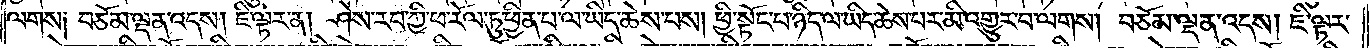ལགས༑ བཅོམ་ལྡན་འདས། ཇི་ལྟར་ན། ཤེས་རབ་ཀྱི་ཕ་རོལ་ཏུ་ཕྱིན་པ་ལ་ཡིད་ཆེས་པས། ཕྱི་སྟོང་པ་ཉིད་ལ་ཡིད་ཆེས་པར་མི་འགྱུར་བ་ལགས། བཅོམ་ལྡན་འདས། ཇི་ལྟར་
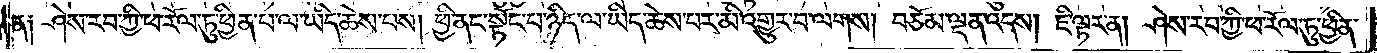ན༑ ཤེས་རབ་ཀྱི་ཕ་རོལ་ཏུ་ཕྱིན་པ་ལ་ཡིད་ཆེས་པས། ཕྱི་ནང་སྟོང་པ་ཉིད་ལ་ཡིད་ཆེས་པར་མི་འགྱུར་བ་ལགས། བཅོམ་ལྡན་འདས། ཇི་ལྟར་ན། ཤེས་རབ་ཀྱི་ཕ་རོལ་ཏུ་ཕྱིན་
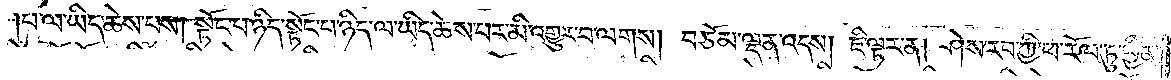པ་ལ་ཡིད་ཆེས་པས། སྟོང་པ་ཉིད་སྟོང་པ་ཉིད་ལ་ཡིད་ཆེས་པར་མི་འགྱུར་བ་ལགས། བཅོམ་ལྡན་འདས། ཇི་ལྟར་ན། ཤེས་རབ་ཀྱི་ཕ་རོལ་ཏུ་ཕྱིན་
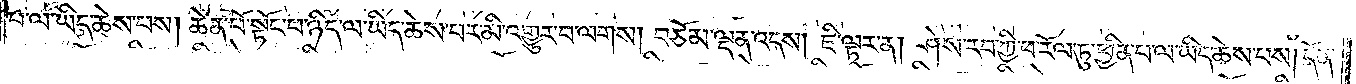པ་ལ་ཡིད་ཆེས་པས། ཆེན་པོ་སྟོང་པ་ཉིད་ལ་ཡིད་ཆེས་པར་མི་འགྱུར་བ་ལགས། བཅོམ་ལྡན་འདས། ཇི་ལྟར་ན། ཤེས་རབ་ཀྱི་ཕ་རོལ་ཏུ་ཕྱིན་པ་ལ་ཡིད་ཆེས་པས། དོན་
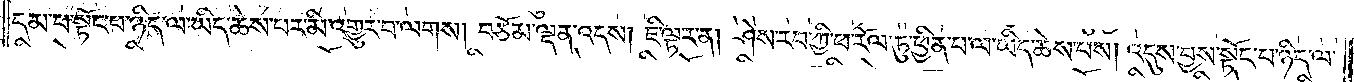དམ་པ་སྟོང་པ་ཉིད་ལ་ཡིད་ཆེས་པར་མི་འགྱུར་བ་ལགས། བཅོམ་ལྡན་འདས། ཇི་ལྟར་ན། ཤེས་རབ་ཀྱི་ཕ་རོལ་ཏུ་ཕྱིན་པ་ལ་ཡིད་ཆེས་པས། འདུས་བྱས་སྟོང་པ་ཉིད་ལ་
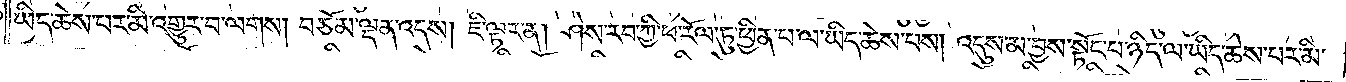ཡིད་ཆེས་པ་མི་འགྱུར་བ་ལགས། བཅོམ་ལྡན་འདས། ཇི་ལྟར་ན། ཤེས་རབ་ཀྱི་ཕ་རོལ་ཏུ་ཕྱིན་པ་ལ་ཡིད་ཆེས་པས། འདུས་མ་བྱས་སྟོང་པ་ཉིད་ལ་ཡིད་ཆེས་པར་མི་
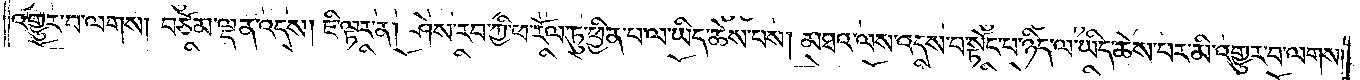འགྱུར་བ་ལགས། བཅོམ་ལྡན་འདས། ཇི་ལྟར་ན། ཤེས་རབ་ཀྱི་ཕ་རོལ་ཏུ་ཕྱིན་པ་ལ་ཡིད་ཆེས་པས། མཐའ་ལས་འདས་པ་སྟོང་པ་ཉིད་ལ་ཡིད་ཆེས་པར་མི་འགྱུར་བ་ལགས།
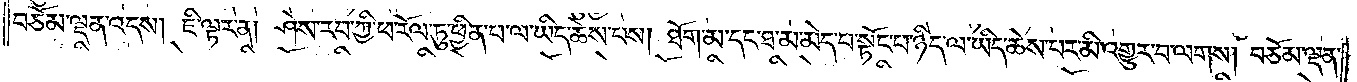བཅོམ་ལྡན་འདས། ཇི་ལྟར་ན། ཤེས་རབ་ཀྱི་ཕ་རོལ་ཏུ་ཕྱིན་པ་ལ་ཡིད་ཆེས་པས། ཐོག་མ་དང་ཐ་མ་མེད་པ་སྟོང་པ་ཉིད་ལ་ཡིད་ཆེས་པར་མི་འགྱུར་བ་ལགས། བཅོམ་ལྡན་
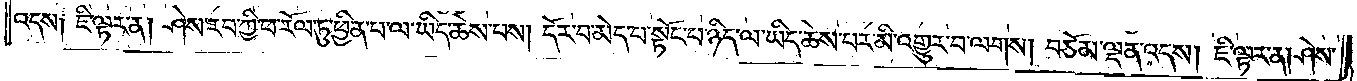འདས༑ ཇི་ལྟར་ན། ཤེས་རབ་ཀྱི་ཕ་རོལ་ཏུ་ཕྱིན་པ་ལ་ཡིད་ཆེས་པས། དོར་བ་མེད་པ་སྟོང་པ་ཉིད་ལ་ཡིད་ཆེས་པར་མི་འགྱུར་བ་ལགས། བཅོམ་ལྡན་འདས། ཇི་ལྟར་ན། ཤེས་
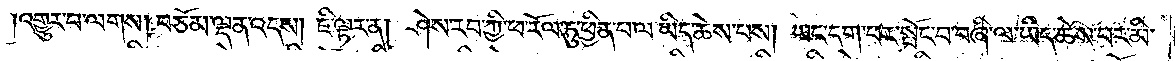འགྱུར་བ་ལགས། བཅོམ་ལྡན་འདས། ཇི་ལྟར་ན། ཤེས་རབ་ཀྱི་ཕ་རོལ་ཏུ་ཕྱིན་པ་ལ་ཡིད་ཆེས་པས། ཡང་དག་པར་སྤོང་བ་བཞི་ལ་ཡིད་ཆེས་པར་མི་
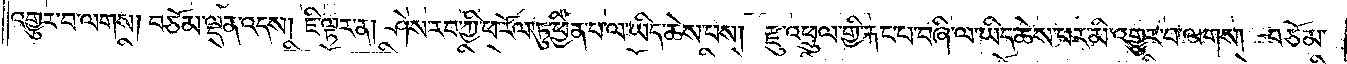འགྱུར་བ་ལགས། བཅོམ་ལྡན་འདས། ཇི་ལྟར་ན། ཤེས་རབ་ཀྱི་ཕ་རོལ་ཏུ་ཕྱིན་པ་ལ་ཡིད་ཆེས་པས། རྫུ་འཕྲུལ་གྱི་རྐང་པ་བཞི་ལ་ཡིད་ཆེས་པར་མི་འགྱུར་བ་ལགས། བཅོམ་
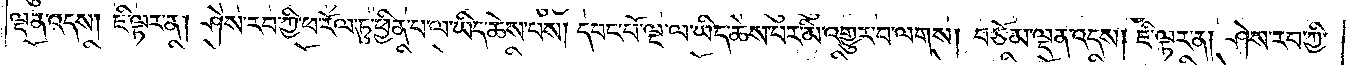ལྡན་འདས། ཇི་ལྟར་ན། ཤེས་རབ་ཀྱི་ཕ་རོལ་ཏུ་ཕྱིན་པ་ལ་ཡིད་ཆེས་པས། དབང་པོ་ལྔ་ལ་ཡིད་ཆེས་པར་མི་འགྱུར་བ་ལགས། བཅོམ་ལྡན་འདས། ཇི་ལྟར་ན། ཤེས་རབ་ཀྱི་
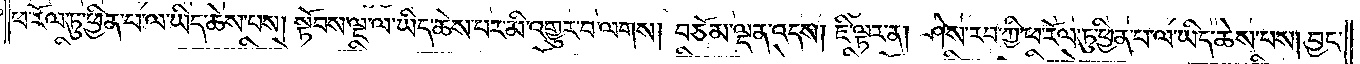ཕ་རོལ་ཏུ་ཕྱིན་པ་ལ་ཡིད་ཆེས་པས། སྟོབས་ལྔ་ལ་ཡིད་ཆེས་པར་མི་འགྱུར་བ་ལགས། བཅོམ་ལྡན་འདས། ཇི་ལྟར་ན། ཤེས་རབ་ཀྱི་ཕ་རོལ་ཏུ་ཕྱིན་པ་ལ་ཡིད་ཆེས་པས། བྱང་
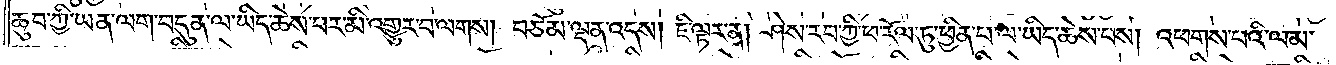ཆུབ་ཀྱི་ཡན་ལག་བདུན་ལ་ཡིད་ཆེས་པར་མི་འགྱུར་བ་ལགས། བཅོམ་ལྡན་འདས། ཇི་ལྟར་ན། ཤེས་རབ་ཀྱི་ཕ་རོལ་ཏུ་ཕྱིན་པ་ལ་ཡིད་ཆེས་པས། འཕགས་པའི་ལམ་
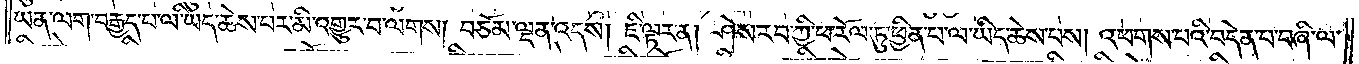ཡན་ལག་བརྒྱད་པ་ལ་ཡིད་ཆེས་པར་མི་འགྱུར་བ་ལགས། བཅོམ་ལྡན་འདས། ཇི་ལྟར་ན། ཤེས་རབ་ཀྱི་ཕ་རོལ་ཏུ་ཕྱིན་པ་ལ་ཡིད་ཆེས་པས། འཕགས་པའི་བདེན་པ་བཞི་ལ་
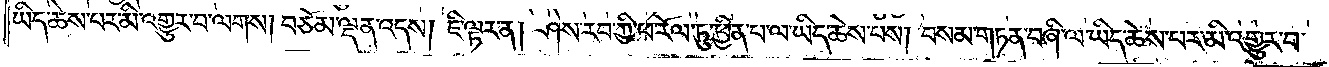ཡིད་ཆེས་པར་མི་འགྱུར་བ་ལགས། བཅོམ་ལྡན་འདས། ཇི་ལྟར་ན། ཤེས་རབ་ཀྱི་ཕ་རོལ་ཏུ་ཕྱིན་པ་ལ་ཡིད་ཆེས་པས། བསམ་གཏན་བཞི་ལ་ཡིད་ཆེས་པར་མི་འགྱུར་བ་
